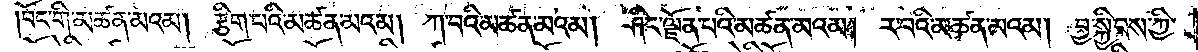བོང་གི་མཚན་མའམ། རྩིག་པའི་མཚན་མའམ། ཀ་བའི་མཚན་མའམ། ཤིང་ལྗོན་པའི་མཚན་མའམ། ར་བའི་མཚན་མའམ། བྱ་སྐྱིབས་ཀྱི་
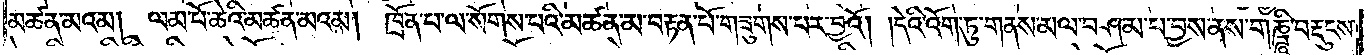མཚན་མའམ། ལམ་པོ་ཆེའི་མཚན་མའམ། ཁྲོན་པ་ལ་སོགས་པའི་མཚན་མ་བརྟན་པོ་གཟུགས་པར་བྱའོ། །དེའི་འོག་ཏུ་གནས་མལ་བཤམ་པ་བྱས་ནས་གཎྜཱི་བརྡུངས་
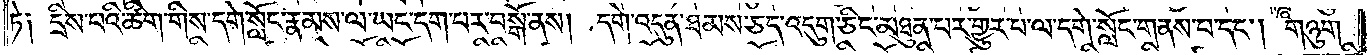ཏེ༑ དྲིས་པའི་ཚིག་གིས་དགེ་སློང་རྣམས་ལ་ཡང་དག་པར་བསྒོ་ནས། དགེ་འདུན་ཐམས་ཅད་འདུག་ཅིང་མཐུན་པར་གྱུར་པ་ལ་དགེ་སློང་གནས་པ་དང༌། གཉུག་
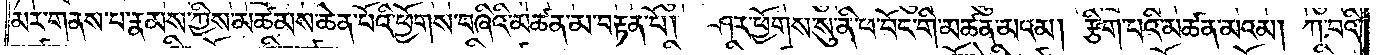མར་གནས་པ་རྣམས་ཀྱིས་མཚམས་ཆེན་པོའི་ཕྱོགས་བཞིའི་མཚན་མ་བརྟན་པོ། ཤར་ཕྱོགས་སུ་ནི་ཕ་བོང་གི་མཚན་མའམ། རྩིག་པའི་མཚན་མའམ། ཀ་བའི་
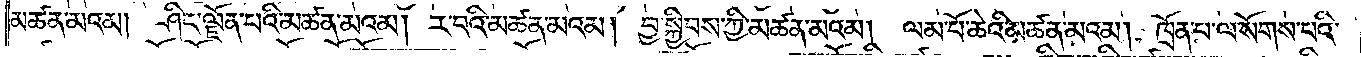མཚན་མའམ། ཤིང་ལྗོན་པའི་མཚན་མའམ། ར་བའི་མཚན་མའམ། བྱ་སྐྱིབས་ཀྱི་མཚན་མའམ། ལམ་པོ་ཆེའི་མཚན་མའམ། ཁྲོན་པ་ལ་སོགས་པའི་
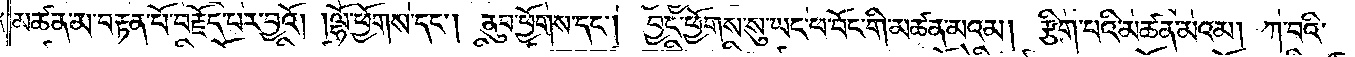མཚན་མ་བརྟན་པོ་བརྗོད་པར་བྱའོ། །ལྷོ་ཕྱོགས་དང༌། ནུབ་ཕྱོགས་དང༌། བྱང་ཕྱོགས་སུ་ཡང་ཕ་བོང་གི་མཚན་མའམ། རྩིག་པའི་མཚན་མའམ། ཀ་བའི་
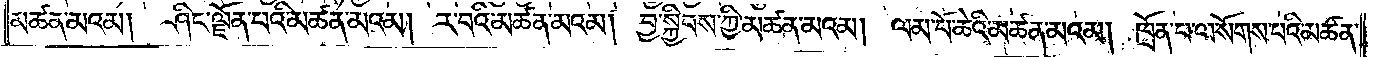མཚན་མའམ། ཤིང་ལྗོན་པའི་མཚན་མའམ། ར་བའི་མཚན་མའམ། བྱ་སྐྱིབས་ཀྱི་མཚན་མའམ། ལམ་པོ་ཆེའི་མཚན་མའམ། ཁྲོན་པ་ལ་སོགས་པའི་མཚན་
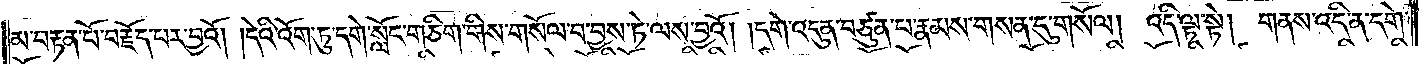མ་བརྟན་པོ་བརྗོད་པར་བྱའོ། །དེའི་འོག་ཏུ་དགེ་སློང་གཅིག་གིས་གསོལ་བ་བྱས་ཏེ་ལས་བྱའོ། །དགེ་འདུན་བཙུན་པ་རྣམས་གསན་དུ་གསོལ། འདི་ལྟ་སྟེ། གནས་འདི་ན་དགེ་
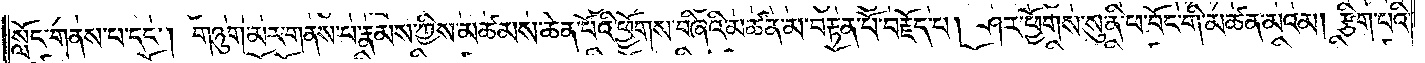སློང་གནས་པ་དང༌། གཉུག་མར་གནས་པ་རྣམས་ཀྱིས་མཚམས་ཆེན་པོའི་ཕྱོགས་བཞིའི་མཚན་མ་བརྟན་པོ་བརྗོད་པ། ཤར་ཕྱོགས་སུ་ནི་ཕ་བོང་གི་མཚན་མའམ། རྩིག་པའི་
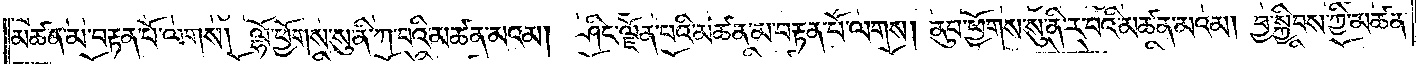མཚན་མ་བརྟན་པོ་ལགས། ལྷོ་ཕྱོགས་སུ་ནི་ཀ་བའི་མཚན་མའམ། ཤིང་ལྗོན་པའི་མཚན་མ་བརྟན་པོ་ལགས། ནུབ་ཕྱོགས་སུ་ནི་ར་བའི་མཚན་མའམ། བྱ་སྐྱིབས་ཀྱི་མཚན་
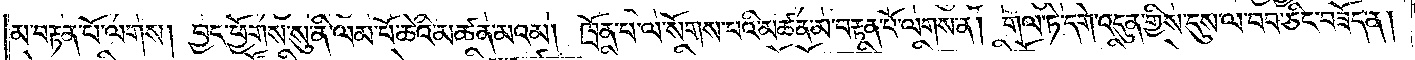མ་བརྟན་པོ་ལགས། བྱང་ཕྱོགས་སུ་ནི་ལམ་པོ་ཆེའི་མཚན་མའམ། ཁྲོན་པ་ལ་སོགས་པའི་མཚན་མ་བརྟན་པོ་ལགས་ན། གལ་ཏེ་དགེ་འདུན་གྱིས་དུས་ལ་བབ་ཅིང་བཟོད་ན།
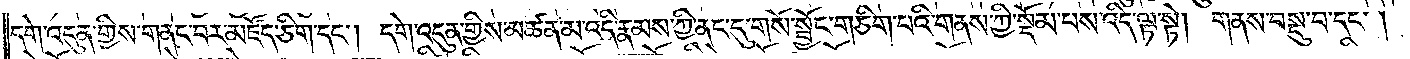དགེ་འདུན་གྱིས་གནང་བར་མཛོད་ཅིག་དང༌། དགེ་འདུན་གྱིས་མཚན་མ་འདི་རྣམས་ཀྱི་ནང་དུ་གསོ་སྦྱོང་གཅིག་པའི་གནས་ཀྱི་སྡོམ་པས་འདི་ལྟ་སྟེ། གནས་བསྡུ་བ་དང༌།
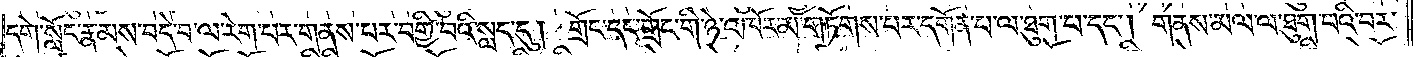དགེ་སློང་རྣམས་བདེ་བ་ལ་རེག་པར་གནས་པར་བགྱི་བའི་སླད་དུ། གྲོང་དང་གྲོང་གི་ཉེ་འཁོར་མ་གཏོགས་པར་དགོན་པ་ལ་ཐུག་པ་དང༌། གནས་མལ་ལ་ཐུག་པའི་བར་
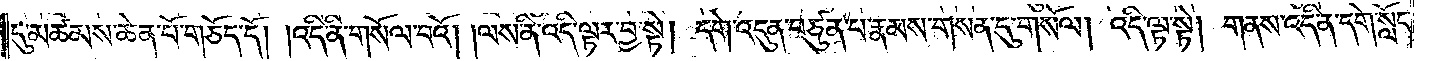དུ་མཚམས་ཆེན་པོ་གཅོད་དོ། །འདི་ནི་གསོལ་བའོ། །ལས་ནི་འདི་ལྟར་བྱ་སྟེ། དགེ་འདུན་བཙུན་པ་རྣམས་གསན་དུ་གསོལ། འདི་ལྟ་སྟེ། གནས་འདི་ན་དགེ་སློང་
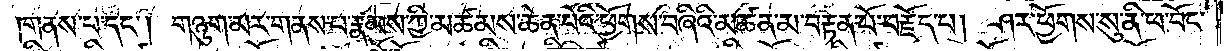གནས་པ་དང༌། གཉུག་མར་གནས་པ་རྣམས་ཀྱི་མཚམས་ཆེན་པོའི་ཕྱོགས་བཞིའི་མཚན་མ་བརྟན་པོ་བརྗོད་པ། ཤར་ཕྱོགས་སུ་ནི་ཕ་བོང་
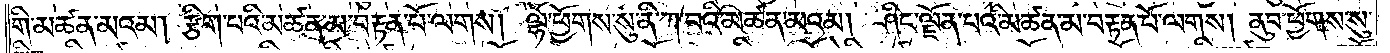གི་མཚན་མའམ། རྩིག་པའི་མཚན་མ་བརྟན་པོ་ལགས། ལྷོ་ཕྱོགས་སུ་ནི་ཀ་བའི་མཚན་མའམ། ཤིང་ལྗོན་པའི་མཚན་མ་བརྟན་པོ་ལགས། ནུབ་ཕྱོགས་སུ་
